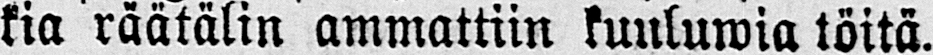kia räätälin ammattiin kuuluwia töitä.
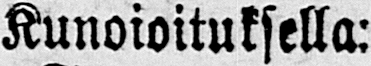Kunoioituksella:
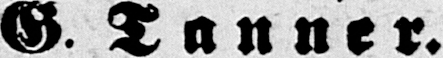G. Tanner.
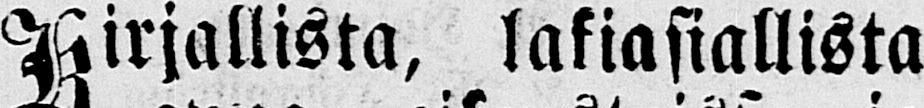Kirjallista, lakiasiallista
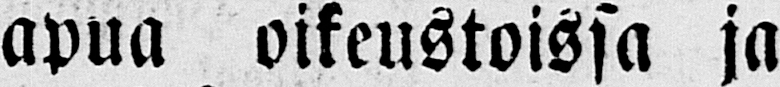apua oikeustoissa ja
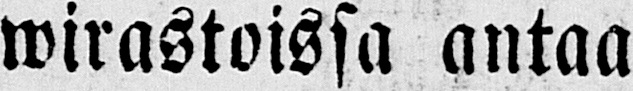wirastoissa antaa
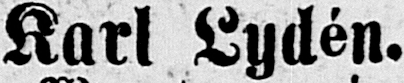Karl Lydén.
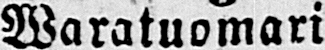Waratuomari
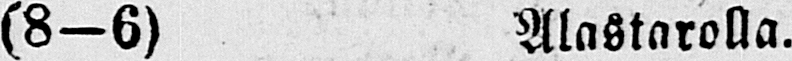(8—6) Alastarolla.
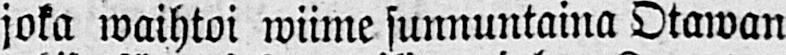Se joka waihtoi wiime sunnuntaina Otawan
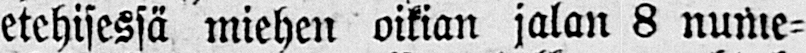etehisessä miehen oikian jalan 8 nume-
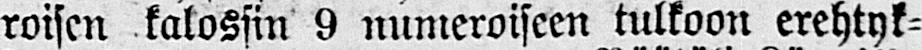roisen kalossin 9 numeroiseen tulkoon erehtyk-
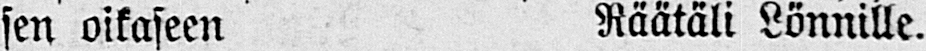sen oikaseen Räätäli Lönnille.
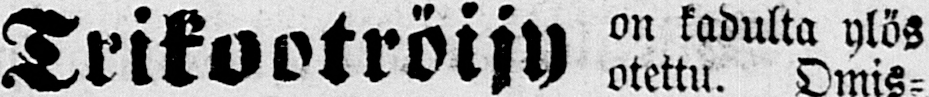Trikootröijy on kadulta ylös
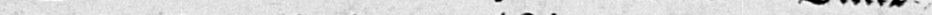otettu. Omis-
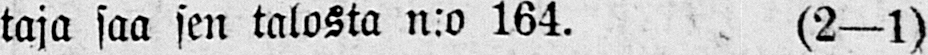taja saa sen talosta n:o 164. (2—1)
